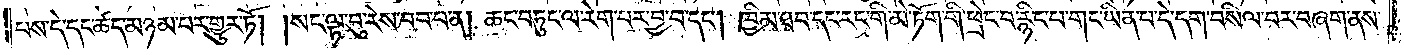པས་དེ་དང་ཚད་མཉམ་པར་གྱུར་ཏོ། །སང་ལྟ་བུ་རེས་བབ་པ་ན། ཆང་བཏུང་ལ་རེག་པར་བྱ་བ་དང༌། ཁྱིམ་ཐབ་དང་རང་གི་མེ་ཏོག་གི་ཕྲེང་བ་རྙིང་པ་གང་ཡིན་པ་དེ་དག་བསིལ་བར་བཞག་ནས་
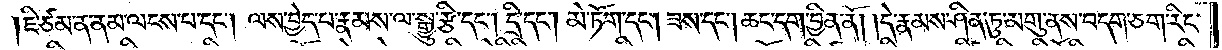།ཇི་ཙམ་ན་ནམ་ལངས་པ་དང༌། ལས་བྱེད་པ་རྣམས་ལ་སྒྱུ་རྩི་དང༌། དྲི་དང༌། མེ་ཏོག་དང༌། ཟས་དང༌། ཆང་དག་བྱིན་ནོ། །དེ་རྣམས་ཤིན་ཏུ་མགུ་ནས་བདག་ཅག་རིང་
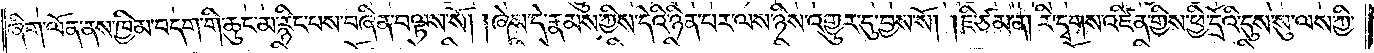ཞིག་ལོན་ནས་ཁྱིམ་བདག་གི་ཆུང་མ་རྙིང་པས་བཞིན་བལྟས་སོ། །ཞེས་དེ་རྣམས་ཀྱིས་དེའི་ཉིན་པར་ལས་ཉིས་འགྱུར་དུ་བྱས་སོ། །ཇི་ཙམ་ན། རི་དྭགས་འཛིན་གྱིས་ཕྱི་དྲོའི་དུས་སུ་ལས་ཀྱི་
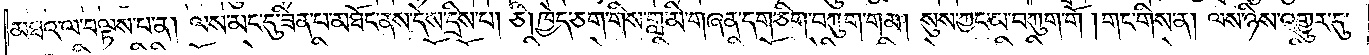མཐའ་ལ་བལྟས་པ་ན། ལས་མང་དུ་ཟིན་པ་མཐོང་ནས་དེས་དྲིས་པ། ཅི། ཁྱེད་ཅག་གིས་གླ་མི་གཞན་དག་ཅིག་བཀུག་གམ། སུས་ཀྱང་མ་བཀུག་གོ། གང་གིས་ན། ལས་ཉིས་འགྱུར་དུ་
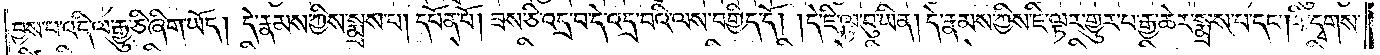བྱས་པ་འདི་ལ་རྒྱུ་ཅི་ཞིག་ཡོད། དེ་རྣམས་ཀྱིས་སྨྲས་པ། དཔོན་པོ། ཟས་ཅི་འདྲ་བ་དེ་འདྲ་བའི་ལས་བགྱིད་དོ། །དེ་ཇི་ལྟ་བུ་ཡིན། དེ་རྣམས་ཀྱིས་ཇི་ལྟར་གྱུར་པ་རྒྱ་ཆེར་སྨྲས་པ་དང༌། རི་དྭགས་
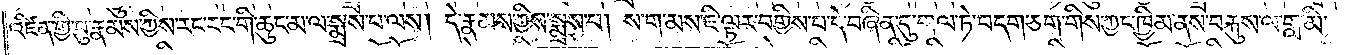འཛིན་གྱི་བུ་རྣམས་ཀྱིས་རང་རང་གི་ཆུང་མ་ལ་སྨྲས་པ་ལས། དེ་རྣམས་ཀྱིས་སྨྲས་པ། ས་ག་མས་ཇི་ལྟར་བགྱིས་པ་དེ་བཞིན་དུ་གལ་ཏེ་བདག་ཅག་གིས་ཀྱང་ཁྱིམ་ནས་བརྐུས་ལ་གླ་མི་
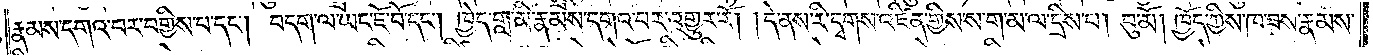རྣམས་དགའ་བར་བགྱིས་པ་དང༌། བདག་ལ་ཡང་ཇོ་བོ་དང༌། ཁྱེད་གླ་མི་རྣམས་དགའ་བར་འགྱུར་རོ། །དེ་ནས་རི་དྭགས་འཛིན་གྱིས་ས་ག་མ་ལ་དྲིས་པ། བུ་མོ། ཁྱོད་ཀྱིས་ཁ་ཟས་རྣམས་
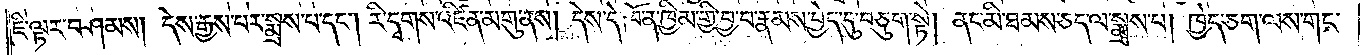ཇི་ལྟར་བཤམས། དེས་རྒྱས་པར་སྨྲས་པ་དང༌། རི་དྭགས་འཛིན་མགུ་ནས། དེས་དེ་ཁོ་ན་ཁྱིམ་གྱི་བྱ་བ་རྣམས་བྱེད་དུ་བཅུག་སྟེ། ནང་མི་ཐམས་ཅད་ལ་སྨྲས་པ། ཁྱེད་ཅག་ལས་གང་
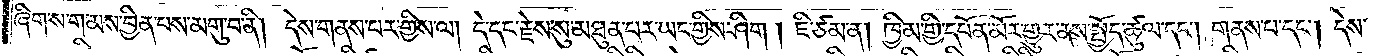ཞིག་ས་ག་མས་བྱིན་པས་མགུ་བ་ནི། དེས་གནས་པར་གྱིས་ལ། དེ་དང་རྗེས་སུ་མཐུན་པར་ཡང་གྱིས་ཤིག། ཇི་ཙམ་ན། ཁྱིམ་གྱི་དཔོན་མོར་གྱུར་ནས་སྤྱོད་ཚུལ་དང༌། གནས་པ་དང༌། དེས་
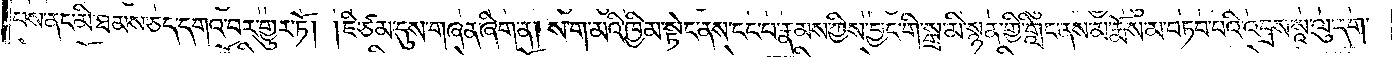པས་ནང་མི་ཐམས་ཅད་དགའ་བར་གྱུར་ཏོ། །ཇི་ཙམ་དུས་གཞན་ཞིག་ན། ས་ག་མའི་ཁྱིམ་སྟེང་ནས་ངང་པ་རྣམས་ཀྱིས་བྱང་གི་སྒྲ་མི་སྙན་གྱི་གླིང་ནས་མ་རྨོས་མ་བཏབ་པའི་འབྲས་སཱ་ལུ་དག་
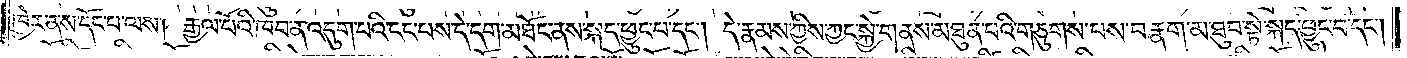ཁྱེར་ནས་དོང་པ་ལས། རྒྱལ་པོའི་ཁབ་ན་འདུག་པའི་ངང་པས་དེ་དག་མཐོང་ནས་སྐད་ཕྱུང་བ་དང༌། དེ་རྣམས་ཀྱིས་ཀྱང་སྐྱེ་གནས་མཐུན་པའི་གཅུགས་པས་བརྣག་མ་ཐུབ་སྟེ་སྐད་ཕྱུང་བ་དང༌།
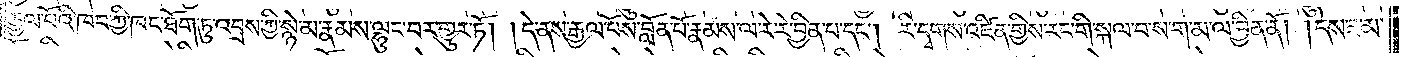རྒྱལ་པོའི་ཁབ་ཀྱི་ཁང་ཐོག་ཏུ་འབྲས་ཀྱི་སྙེ་མ་རྣམས་ལྷུང་བར་གྱུར་ཏོ། །དེ་ནས་རྒྱལ་པོས་བློན་པོ་རྣམས་ལ་རེ་རེ་བྱིན་པ་དང༌། རི་དྭགས་འཛིན་གྱིས་རང་གི་སྐལ་བ་ས་ག་མ་ལ་བྱིན་ནོ། །དེས་ཟ་མ་
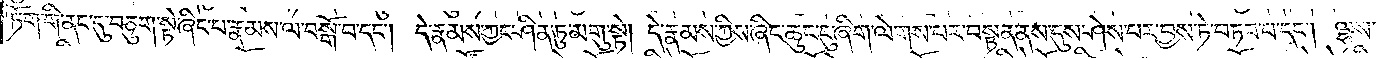ཏོག་གི་ནང་དུ་བཅུག་སྟེ་ཞིང་པ་རྣམས་ལ་བསྒོ་བ་དང༌། དེ་རྣམས་ཀྱང་ཤིན་ཏུ་མགུ་སྟེ། དེ་རྣམས་ཀྱིས་ཞིང་ཆུང་ངུ་ཞིག་ལེགས་པར་བསྟན་ནས་དུས་ཤེས་པར་བྱས་ཏེ་བཏབ་པ་དང༌། ལྷས་
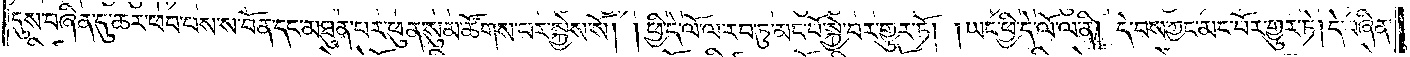དུས་བཞིན་དུ་ཆར་ཕབ་པས་ས་བོན་དང་མཐུན་པར་ཕུན་སུམ་ཚོགས་པར་སྐྱེས་སོ། །ཕྱི་དེ་ལོ་ལ་རབ་ཏུ་མང་པོ་སྐྱེ་བར་གྱུར་ཏོ། །ཡང་ཕྱི་དེ་ལོ་ལ་ནི། དེ་བས་ཀྱང་མང་པོར་གྱུར་ཏེ། དེ་བཞིན་
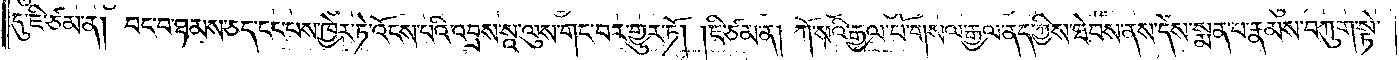དུ་ཇི་ཙམ་ན། བང་བ་ཐམས་ཅད་ངང་པས་ཁྱེར་ཏེ་འོངས་པའི་འབྲས་སཱ་ལུས་གང་བར་གྱུར་ཏོ། །ཇི་ཙམ་ན། ཀོ་སའི་རྒྱལ་པོ་གསལ་རྒྱལ་ནད་ཀྱིས་ཐེབས་ནས་དེས་སྨན་པ་རྣམས་བཀུག་སྟེ་
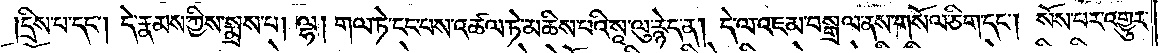དྲིས་པ་དང༌། དེ་རྣམས་ཀྱིས་སྨྲས་པ། ལྷ། གལ་ཏེ་ངང་པས་འཚལ་ཏེ་མཆིས་པའི་སཱ་ལུ་རྙེད་ན། དེ་ལ་འཇམ་བསྒྲལ་ནས་གསོལ་ཅིག་དང༌། སོས་པར་འགྱུར་
